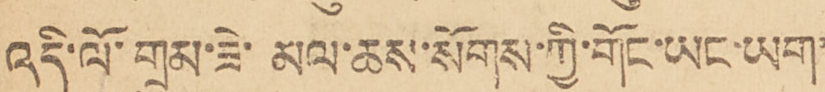འདི་ལོ་གྲུམ་ཟེ་མལ་ཆས་སོགས་ཀྱི་གོང་ཡང་ཡག་
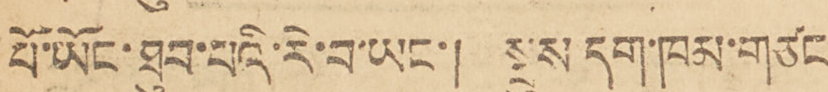པོ་ཡོང་ཐུབ་པའི་རེ་བ་ཡང་། སྤུས དག་ཁམ་གཙང་
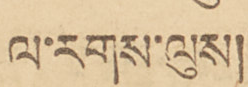ལ་རགས་ལུས།
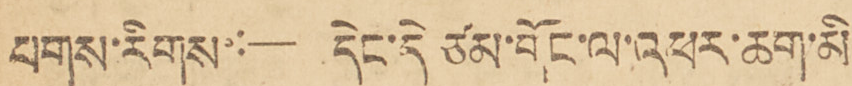པགས་རིགས་:— དེང་དེ ཙམ་གོང་ལ་འཕར་ཆག་མི་
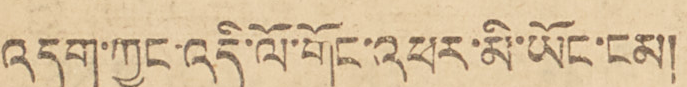འདུག་ཀྱང་འདི་ལོ་གོང་འཕར་མི་ཡོང་ངམ།
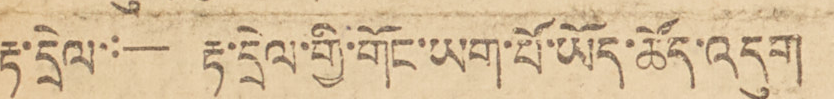རྟ་དྲེལ་:— རྟ་དྲེལ་གྱི་གོང་ཡག་པོ་ཡོད་ཆོད་འདུག །
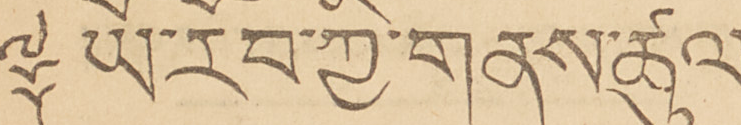༈ ཡོ་རོབ་ཀྱི་གནས་ཚུལ།
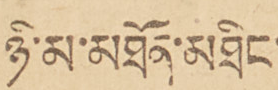ཉི་མ་མཐོན་མཐིང་
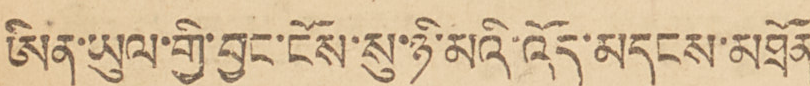ཨིན་ཡུལ་གྱི་བྱང་ངོས་སུ་ཉི་མའི་འོད་མདངས་མཐོན་
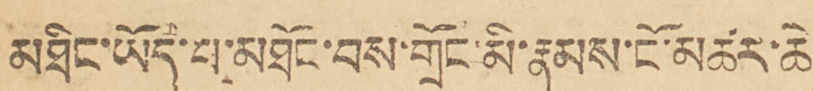མཐིང་ཡོད་པ་མཐོང་བས་གྲོང་མི་རྣམས་ངོ་མཚར་ཆེ་
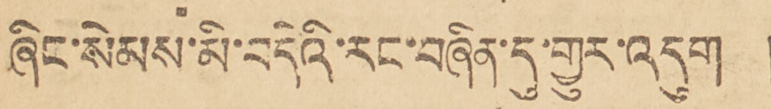ཞིང་སེམས་མི་བདེའི་རང་བཞིན་དུ་གྱུར་འདུག །
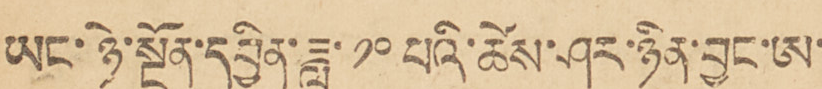ཡང་ཉེ་སྔོན་དབྱིན་ཟླ་ ༡༠ པའི་ཚེས་ཤར་ཉིན་བྱང་ཨ་
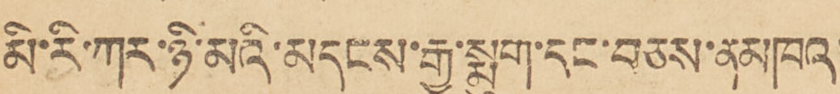མི་རི་ཀར་ཉི་མའི་མདངས་རྒྱ་སྨུག་དང་བཅས་ནམཁའ་
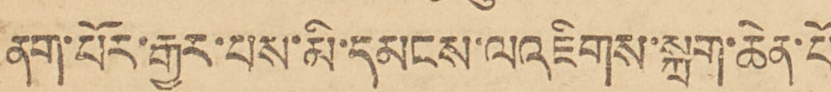ནག་པོར་རྒྱུར་པས་མི་མདངས་ལའཇིགས་སྐྲག་ཆེན་པོ་
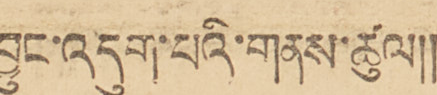བྱུང་འདུག་པའི་གནས་ཚུལ།།
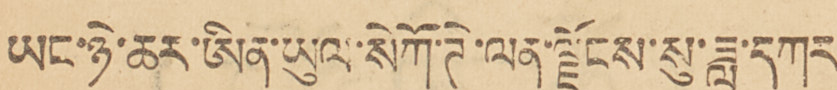ཡང་ཉེ་ཆར་ཨིན་ཡུལ་སེཀོ་ཊེ་ལན་ལྗོངས་སུ་ཟླ་དཀར་
